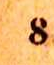8
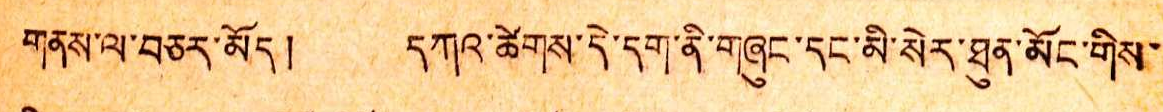གནས་ལ་བཅར་མོད། དཀའ་ཚེགས་དེ་དག་ནི་གཞུང་དང་མི་སེར་ཐུན་མོང་གིས་
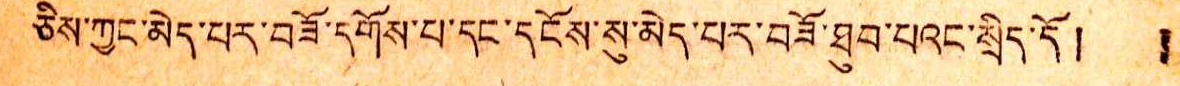ཅིས་ཀྱང་མེད་པར་བཟོ་དགོས་པ་དང་དངོས་སུ་མེད་པར་བཟོ་ཐུབ་པའང་སྲིད་དོ། །
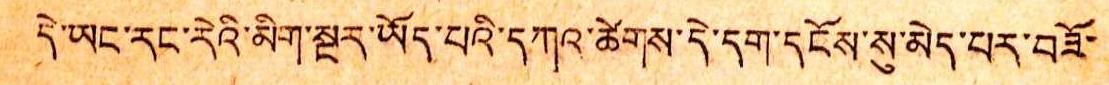དེ་ཡང་རང་རེའི་མིག་སྔར་ཡོད་པའི་དཀའ་ཚེགས་དེ་དག་དངོས་སུ་མེད་པར་བཟོ་
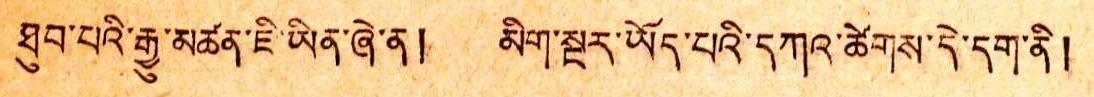ཐུབ་པའི་རྒྱུ་མཚན་ཇི་ཡིན་ཞེ་ན། མིག་སྔར་ཡོད་པའི་དཀའ་ཚེགས་དེ་དག་ནི།
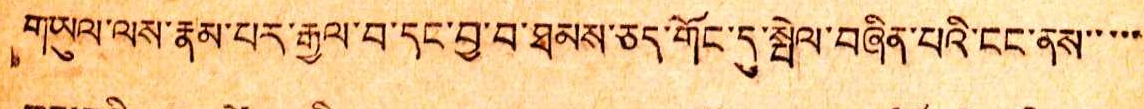གཡུལ་ལས་རྣམ་པར་རྒྱལ་བ་དང་བྱ་བ་ཐམས་ཅད་གོང་དུ་སྤེལ་བཞིན་པའི་ངང་ནས་་་་་
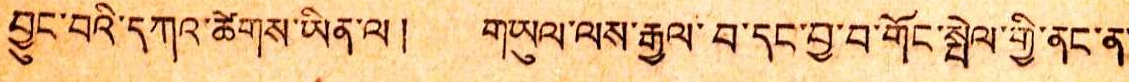བྱུང་བའི་དཀའ་ཚེགས་ཡིན་ལ། གཡུལ་ལས་རྒྱལ་བ་དང་བྱ་བ་གོང་སྤེལ་གྱི་ནང་ན་
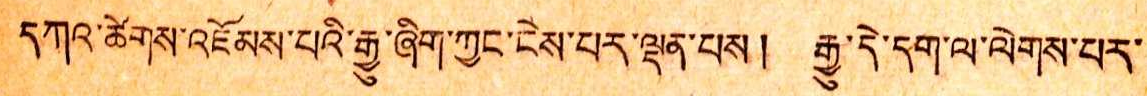དགའ་ཚེགས་འཇོམས་པའི་རྒྱུ་ཞིག་ཀྱང་ངེས་པར་ལྡན་པས། རྒྱུ་དེ་དག་ལ་ལེགས་པར་
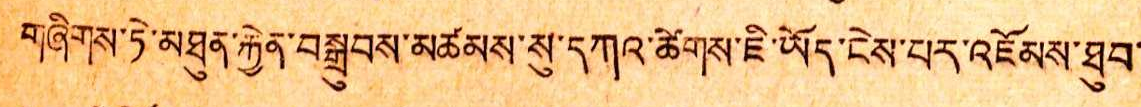གཞིགས་ཏེ་མཐུན་རྐྱེན་བསྒྲུབས་མཚམས་སུ་དགའ་ཚེགས་ཇི་ཡོད་ངེས་པར་འཇོམས་ཐུབ་
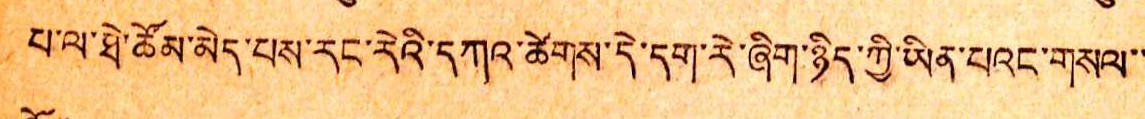པ་ལ་ཐེ་ཚོམ་མེད་པས་རང་རེའི་དཀའ་ཚེགས་དེ་དག་རེ་ཞིག་ཉིད་ཀྱི་ཡིན་པའང་གསལ་་
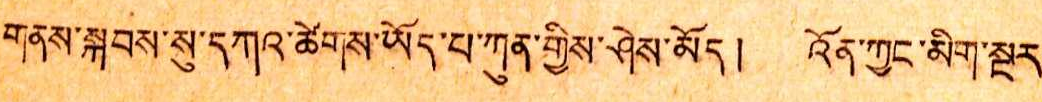གནས་སྐབས་སུ་དཀའ་ཚེགས་ཡོད་པ་ཀུན་གྱིས་ཤེས་མོད། འོན་ཀྱང་མིག་སྔར་
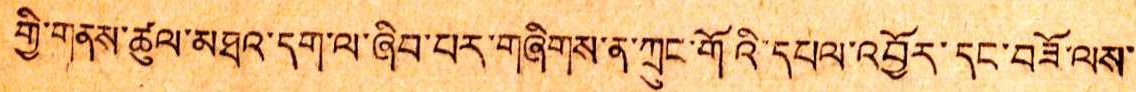གྱི་གནས་ཚུལ་མཐའ་དག་ལ་ཞིབ་པར་གཞིགས་ན་ཀྲུང་གོའི་དཔལ་འབྱོར་དང་བཟོ་ལས་
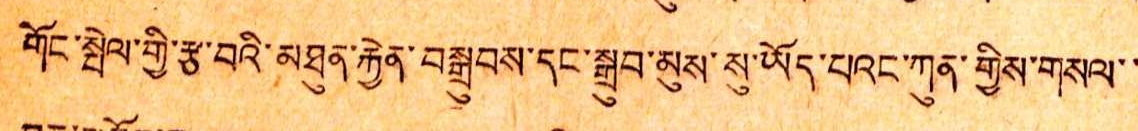གོང་སྤེལ་གྱི་རྩ་བའི་མཐུན་རྐྱེན་བསྒྲུབས་དང་སྒྲུབ་མུས་སུ་ཡོད་པའང་ཀུན་གྱིས་གསལ་་
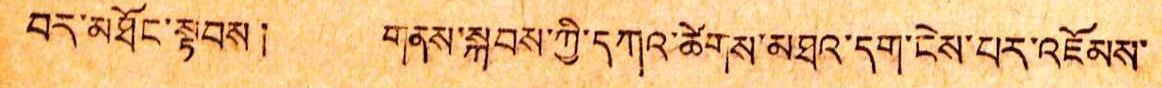བར་མཐོང་སྟགས། གནས་སྐབས་ཀྱི་དཀའ་ཚེགས་མཐའ་དག་ངེས་པར་འཇོམས་
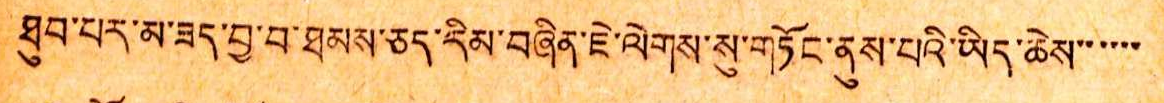ཐུབ་པར་མ་ཟད་བྱ་བ་ཐམས་ཅད་རིམ་བཞིན་ཇེ་ལེགས་སུ་གཏོང་ནུས་པའི་ཡིད་ཆེས་་་་་་
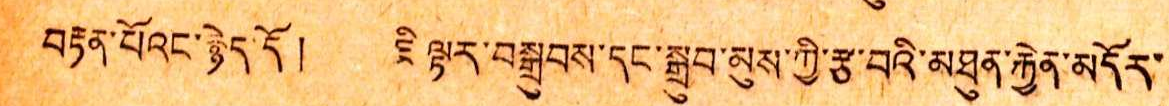བརྟན་པོའང་རྙེད་དོ། ཇི ལྟད་བསྒྲུབས་དང་སྒྲུབ་མུས་ཀྱི་རྩ་བའི་མཐུན་རྐྱེན་མདོར་
